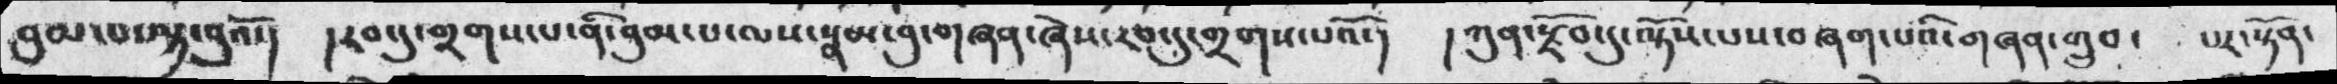བུམ་པ་ལྟ་བུའོ་།  །རབ་དུ་གྲགས་པ་ནི་བུམ་པ་ལས་སྣམ་བུ་གཞན་ཞེས་རབ་དུ་གྲགས་པའོ་།  ། ཀུན་རྫོབ་དུ་ལྟོས་པས་བཞག་པའི་གཞན་གྲུབ་   པར་སྟོན་
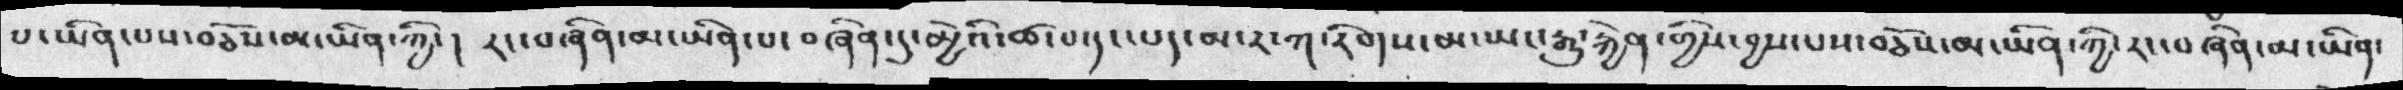པ་ཡིན་པས་བཅོས་མ་ཡིན་ཀྱི་།  རང་བཞིན་མ་ཡིན་པ་བཞིན་དུ་མྱེའི་ཚ་པ་དང་པད་མ་ར་ཀ་རིགས་མ་ཡང་རྒྱུ་རྐྱེན་གྱིས་བྱས་པས་བཅོས་མ་ཡིན་ཀྱི་རང་བཞིན་མ་ཡིན་
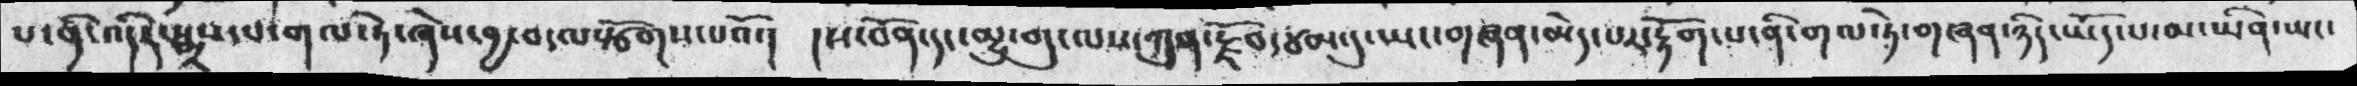པ་ནི་འདིར་སྨྲས་པ་གལ་ཏེ་ཞེས་བྱ་བ་ལསྩོགས་པའོ་།  །ས་བོན་དང་མྱུ་གུ་ལས་ཀུན་རྫོབ་ཙམ་དུ་ཡང་གཞན་མེད་པར་རྟོག་པ་ནི་གལ་ཏེ་གཞན་ཉིད་ཡོད་པ་མ་ཡིན་ཡང་
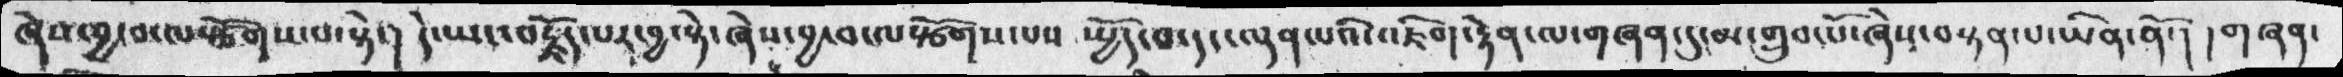ཞེས་བྱ་བ་ལསྩོགས་པ་སྟེ་། དེ་ཡང་བརྗོད་པར་བྱ་སྟེ་ཞེས་བྱ་བ་ལསྩོགས་པས སྤྱོད་བ་དང་ལྡན་པའི་འཇིག་རྟེན་ལ་གཞན་དུ་མ་གྲུབ་པོ་ཞེས་བསྟན་པ་ཡིན་ནོ་། །གཞན་
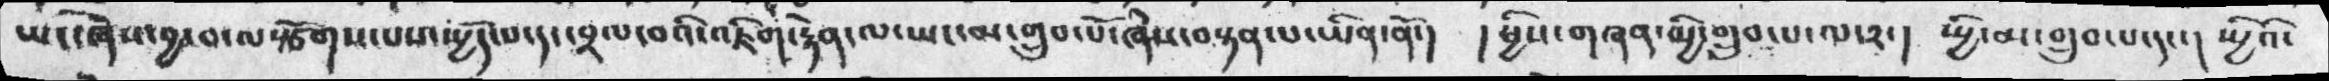ཡང་ཞེས་བྱ་བ་ལསྩོགས་པས་སྤྱོད་པ་དང་བྲལ་བའི་འཇིག་རྟེན་ལ་ཡང་མ་གྲུབ་པོ་ཞེས་བསྟན་པ་ཡིན་ནོ་། །ཕྱིས་གཞན་མྱི་གྲུབ་པ་ལ༢་། སྤྱི་མ་གྲུབ་པ་དང་། སྤྱིའི་
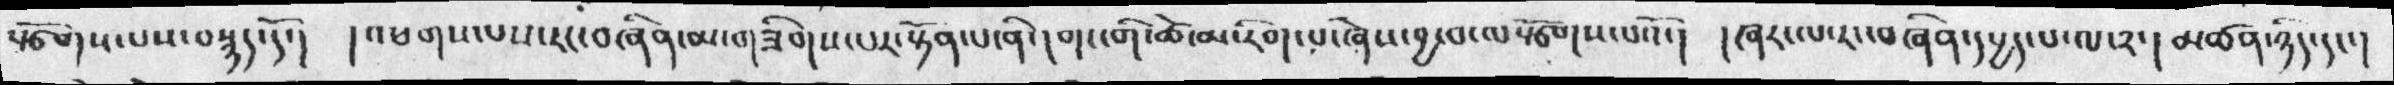སྩོགས་པས་བསྙད་དོ་། །འཕགས་པས་རང་བཞིན་མ་གཟིགས་པར་སྟོན་པ་ནི་།གང་གི་ཚེ་མ་རིག་པ་ཞེས་བྱ་བ་ལསྩོགས་པའོ་། །ཞར་ལ་རང་བཞིན་དཔྱད་པ་ལ་༢་།མཚན་ཉིད་དང་།
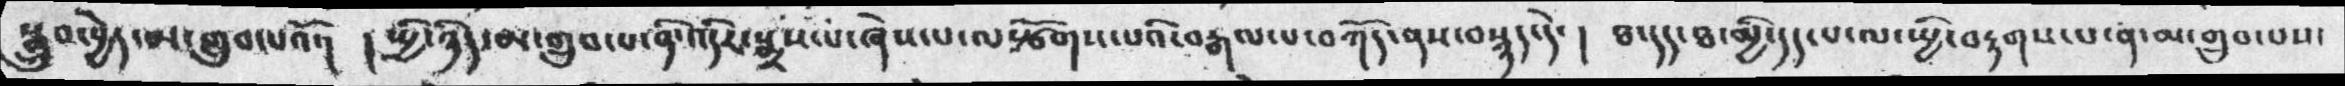སྒྲུབ་བྱེད་མ་གྲུབ་པའོ་།  ། སྤྱི་ཉིད་མ་གྲུབ་པ་ནི་འདིར་སྨྲས་པ་ཞེས་པ་ལ་སྩོགས་པའི་བརྒལ་པ་བཀོད་ནས་བསྙད་དེ་།  ཐ་དད་ཐ་མྱི་དད་པ་ལ་སྤྱི་བརྟགས་པ་ན་མ་གྲུབ་པས་
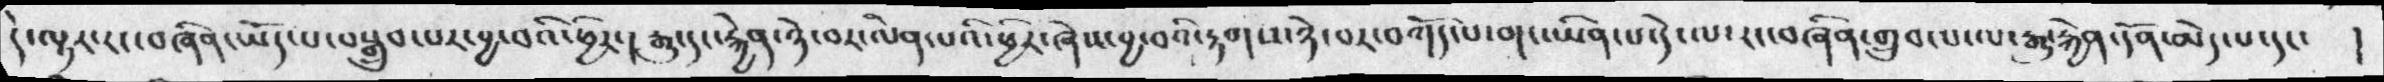དེ་ལྟར་རང་བཞིན་ཡོད་པ་བསྒྲུབ་པར་བྱ་བའི་ཕྱིར་།  རྒྱུ་དང་རྐྱེན་ཉེ་བར་ལེན་པའི་ཕྱིར་ཞེས་བྱ་བའི་རྟགས་ཉེ་བར་བཀོད་པ་གང་ཡིན་པ་དེ་ལ་རང་བཞིན་གྲུབ་པ་ལ་རྒྱུ་རྐྱེན་དོན་མེད་པ་དང་ །
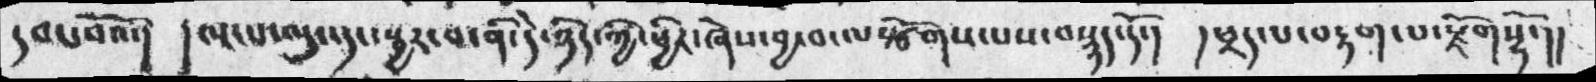དབང་པོའོ་། །ལྔ་པ་ལུང་དང་སྦྱར་བ་ནི་དེ་ཉིད་ཀྱི་ཕྱིར་ཞེས་བྱ་བ་ལསྩོགས་པས་བསྙད་དོ་།  །ཕྲད་པ་བརྟག་པ་རྫོགསྷོ་།།
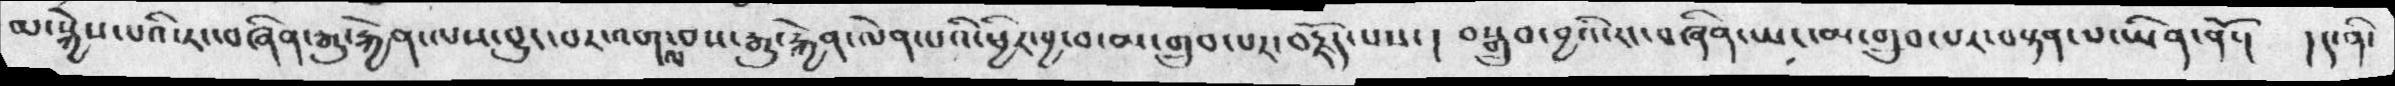མ་སྐྱེས་པའི་རང་བཞིན་རྒྱུ་རྐྱེན་ལས་བྱུང་བར་འགལ་བས་རྒྱུ་རྐྱེན་ལེན་པའི་ཕྱིར་བྱ་བ་མ་གྲུབ་པར་བརྗོད་པས་།  བསྒྲུབ་བྱའི་རང་བཞིན་ཡང་མ་གྲུབ་པར་བསྟན་པ་ཡིན་ནོ་།  །ད་ནི་
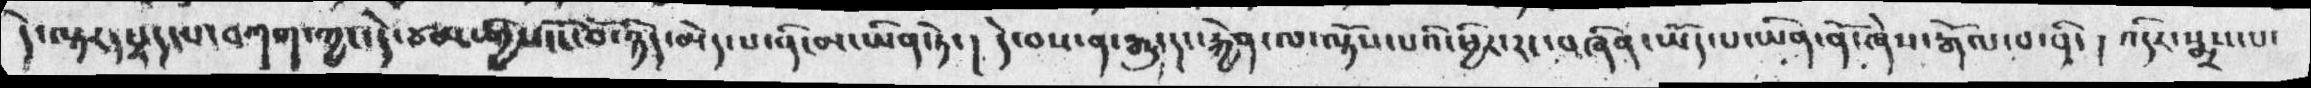དེ་ལྟར་ཕྲད་པ་བཀག་ཀྱང་དེ་ཙམ་གྱིས་ངོ་བོ་ཉིད་མེད་པ་ནི་མ་ཡིན་ཏེ་། དེ་བས་ན་རྒྱུ་དང་རྐྱེན་ལ་ལྟོས་པའི་ཕྱིར་རང་བཞིན་ཡོད་པ་ཡིན་ནོ་ཞེས་རྒོལ་བ་ནི་། འདིར་སྨྲས་པ་
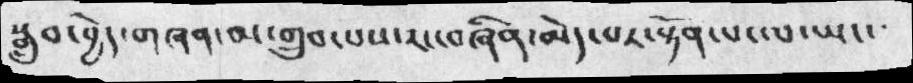སྒྲུབ་བྱེད་གཞན་མ་གྲུབ་པས་རང་བཞིན་མེད་པར་སྟོན་པ་ལ་ཡང་
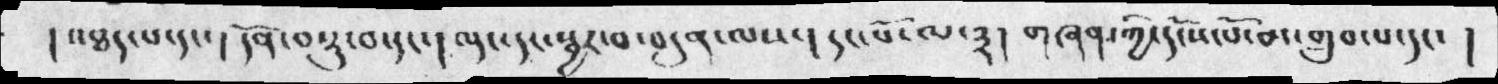།འཐད་པ་དང་། དོན་བསྡུ་བ་དང་། ལུང་དང་སྦྱར་བ་བདུན་ལས་། དང་པོ་ལ་༣། གཞན་ཀྱི་དངོས་པོ་མ་གྲུབ་པ་དང་ །
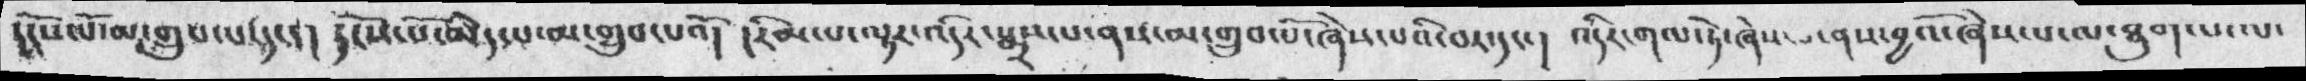དངོས་པོ་མ་གྲུབ་པ་དང་།   དངོས་པོ་མེད་པ་མ་གྲུབ་པའོ།  །རིམ་པ་ལྟར་འདིར་སྨྲས་པ་ནས་མ་གྲུབ་པོ་ཞེས་པའི་བར་དང་།  འདིར་གལ་ཏེ་ཞེས་པ་ནས་བྱའོ་ཞེས་པ་ལ་ཐུག་པ་ལ་
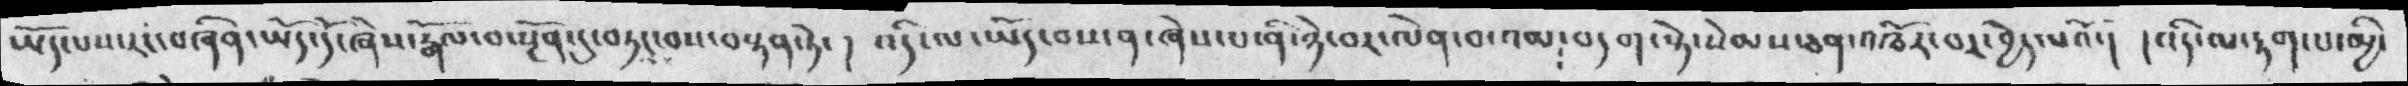ཡོད་པས་རང་བཞིན་ཡོད་དོ་ཞེས་རྒོལ་བ་སྔོན་དུ་བཏང་པས་བསྟན་ཏེ་ །  འདི་ལ་ཡོད་བས་ན་ཞེས་པ་ནི་ཉེ་བར་ལེན་བ་འམ༴བདག་སྟེ་སེམས་ཅན་འཁོར་བར་བྱེད་པའོ་།  ། འདི་ལ་རྟག་པ་མྱི་
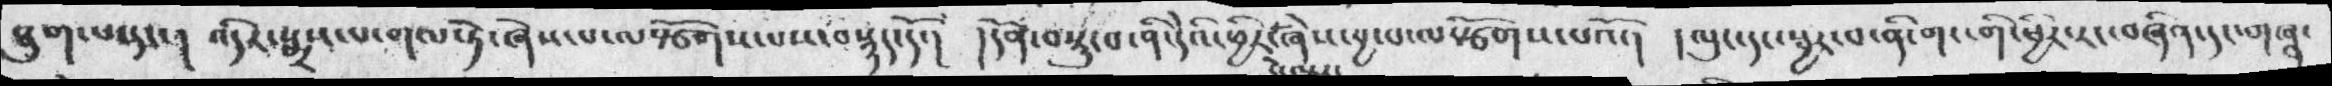ཐུག་པ་དང་།  འདིར་སྨྲས་པ་གལ་ཏེ་ཞེས་པ་ལསྩོགས་པས་བསྙད་དོ་།   །དོན་བསྡུ་པ་ནི་དེའི་ཕྱིར་ཞེས་བྱ་བ་ལསྩོགས་པའོ་།   ། ལུང་དང་སྦྱར་པ་ནི་གང་གི་ཕྱིར་རང་བཞིན་དང་གཞན་
